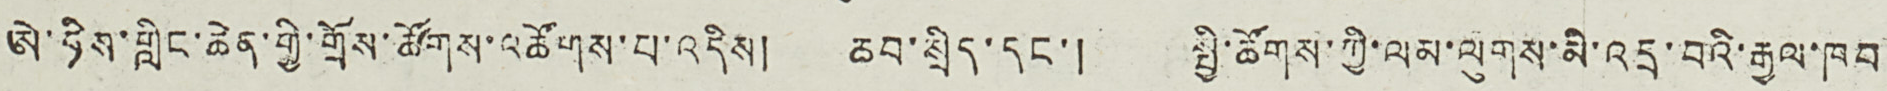ཨེ་ཧིས་གླིང་ཆེན་གྱི་གྲོས་ཚོགས་འཚོགས་པ་འདིས། ཆབ་སྲིད་དང་། སྤྱི་ཚོགས་ཀྱི་ལམ་ལུགས་མི་འདྲ་བའི་རྒྱལ་ཁབ
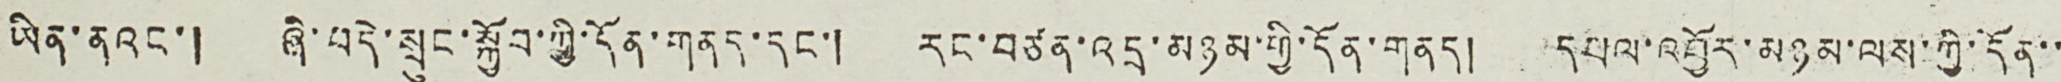ཡིན་ནའང་། ཞི་བདེ་སྲུང་སྐྱོབ་ཀྱི་དོན་གནད་དང་། རང་བཙན་འདྲ་མཉམ་གྱི་དོན་གནད། དཔལ་འབྱོར་མཉམ་ལས་ཀྱི་དོན་་
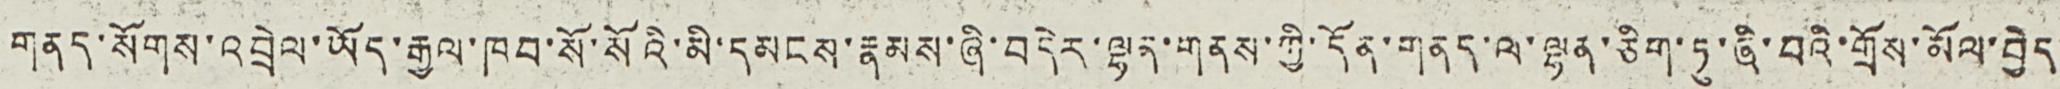གནད་སོགས་འབྲེལ་ཡོད་རྒྱལ་ཁབ་སོ་སོའི་མི་དམངས་རྣམས་ཞི་བདེར་ལྷན་གནས་ཀྱི་དོན་གནད་ལ་ལྷན་ཅིག་ཏུ་ཞི་བའི་གྲོས་མོལ་བྱེད་
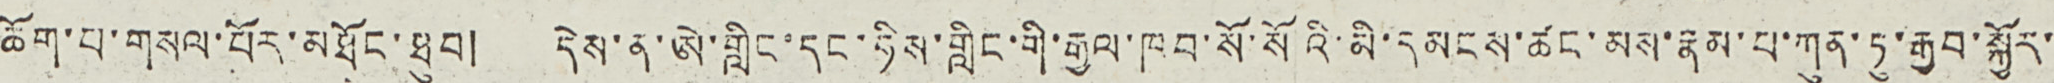ཆོག་པ་གསལ་པོར་མཐོང་ཐུབ། དེས་ན་ཨེ་གླིང་དང་ཧིས་གླིང་གི་རྒྱལ་ཁབ་སོ་སོའི་མི་དམངས་ཚང་མས་རྣམ་པ་ཀུན་ཏུ་རྒྱབ་སྐྱོར་་
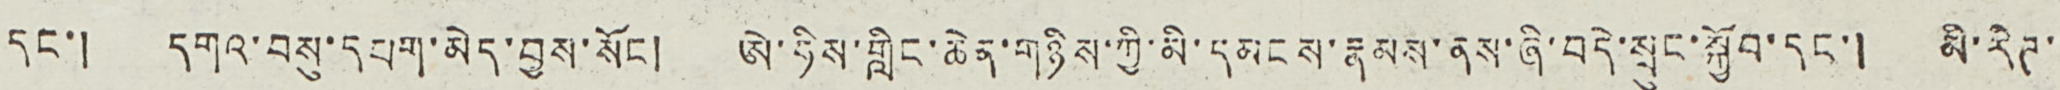དང་། དགའ་བསུ་དཔག་མེད་བྱས་སོང ། ཨེ་ཧིས་གླིང་ཆེན་གཉིས་ཀྱི་མི་དམངས་རྣམས་ནས་ཞི་བདེ་སྲུང་སྐྱོབ་དང་། མི་རིཊ་་
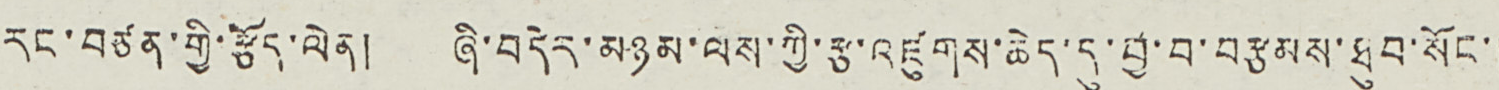རང་བཙན་གྱི་རྩོད་ལེན། ཞི་བདེར་མཉམ་ལས་ཀྱི་འཛུགས་ཆེད་དུ་བྱ་བ་བརྩམས་ཐུབ་སོང་།
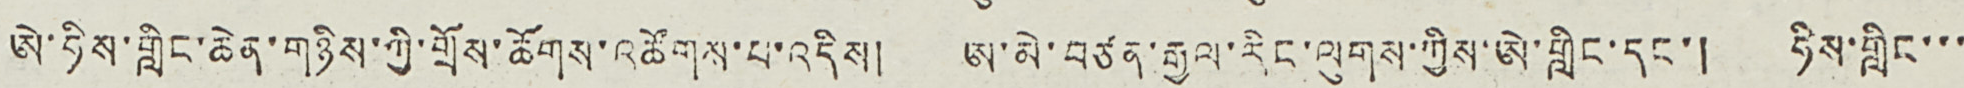ཨེ་ཧིས་གླིང་ཆེན་གཉིས་ཀྱི་གྲོས་ཚོགས་འཚོགས་པ་འདིས། ཨ་མེ་བཙན་རྒྱལ་རིང་ལུགས་ཀྱིས་ཨེ་གླིང་དང་། ཧིས་གླིང་་་
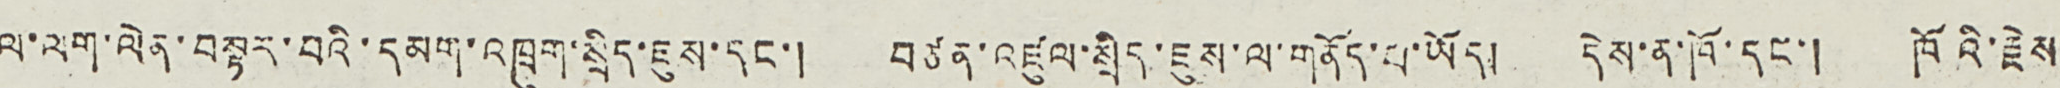ལ་ལག་ལེན་བསྟར་བའི་དམག་འཁྲུག་སྲིད་ཇུས་དང་། བཙན་འཛུལ་སྲིད་ཇུས་ལ་གནོད་པ་ཡོད། དེས་ན་ཁོ་དང་། ཁོའི་རྗེས་
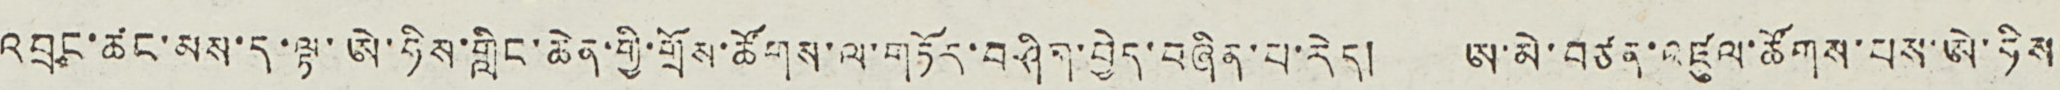འབྲང་ཚང་མས་ད་ལྟ་ཨེ་ཧིས་གླིང་ཆེན་གྱི་གྲོས་ཚོགས་ལ་གཏོར་བཤིག་བྱེད་བཞིན་པ་རེད། ཨ་མེ་བཙན་འཛུལ་ཚོགས་པས་ཨེ་ཧིས་
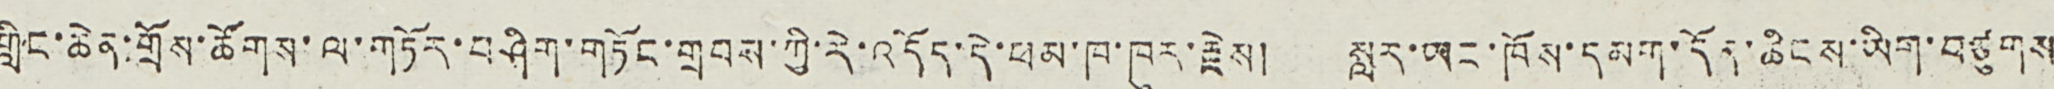གླིང་ཆེན་གྲོས་ཚོགས་ལ་གཏོར་བཤིག་གཏོང་གྲབས་ཀྱི་རེ་འདོད་དེ་ཕམ་ཁ་ཁུར་རྗེས། སླར་ཡང་ཁོས་དམག་དོན་ཆིངས་ཡིག་བཙུགས་
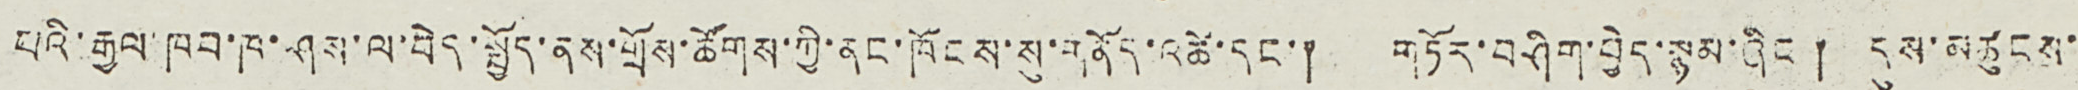པའི་རྒྱལ་ཁབ་ཁ་ཤས་ལ་བེད་སྤྱོད་ནས་གྲོས་ཚོགས་ཀྱི་ནང་ཁོངས་སུ་གནོད་འཚེ་དང་། གཏོར་བཤིག་བྱེད་སྙམ་ཞིང་། དུས་མཚུངས་་
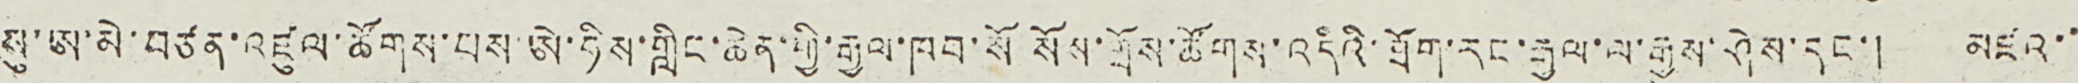སུ་ཨ་མེ་བཙན་འཛུལ་ཚོགས་པས་ཨེ་ཧིས་གླིང་ཆེན་གྱི་རྒྱལ་ཁབ་སོ་སོས་གྲོས་ཚོགས་འདིའི་ཐོག་རང་རྒྱལ་ལ་རྒྱུས་ཤེས་དང་། མཛའ་་
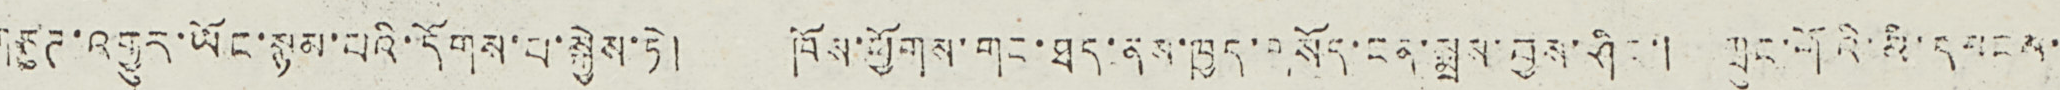གཙུཊ་འགྱུར་ཡོང་སྙམ་པའི་དོགས་པ་སྐྱེས་ཏེ། ཁོས་གྱོགས་གང་ཐད་ནས་ཁྱད་གསོད་ངན་སྨྲས་བྱས་ཤིང་། ཀྲུང་གོའི་མི་དམངས་
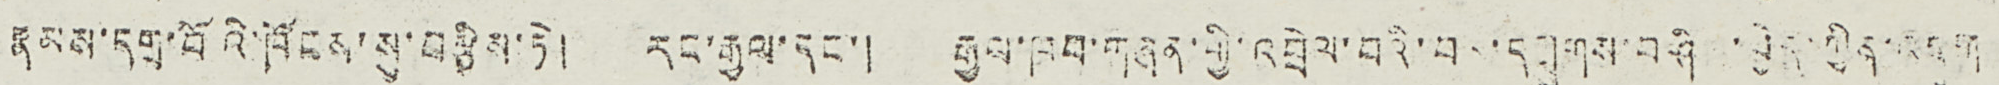རྣམས་དགྲ་པོའི་ཁོངས་སུ་བརྩིས་ཏེ། རང་རྒྱལ་དང་། རྒྱལ་ཁབ་གཞན་གྱི་འབྲེལ་བའི་བར་དགྲུགས་བཤི ་བྱེད་ཀྱིན་འ ག
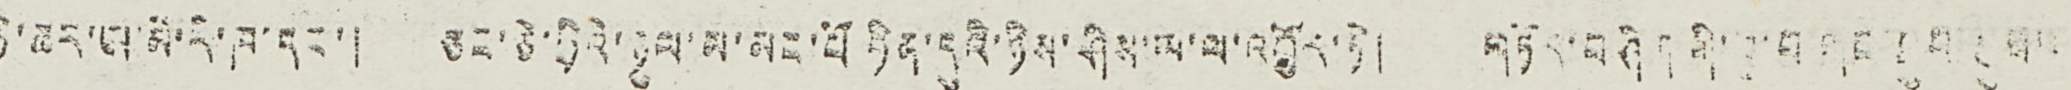ཉི་ཆར་ཨ་མེ་རི་ཁ་དང་། ཅང་ཅེ་ཧྲིའི་ཉུལ་མ་མང་པོ་ཧིན་དུའི་ཉིས་ཤིས་ཡ་ལ་འབྱོར་ཏེ། གཏོར་བཤིག་གི་ ་བ ད་ཐུབ་  ང
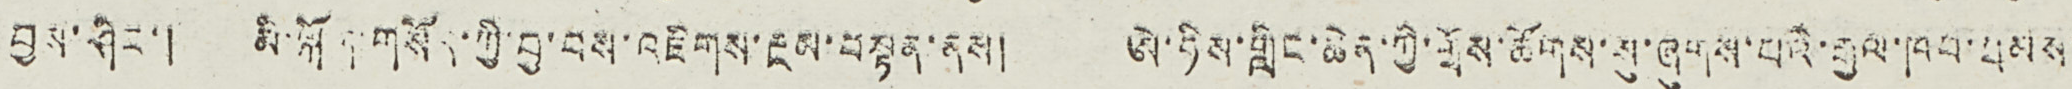བྱས་ཤིང་། མི་ལྐོག་གསོད་ཀྱི་བྱ་བས་འཇིགས་རྔམ་བསྟན་ནས། ཨེ་ཧིས་གླིང་ཆེན་ཀྱི་གྲོས་ཚོགས་སུ་ཞུགས་པའི་རྒྱལ་ཁབ་ཐམས་
